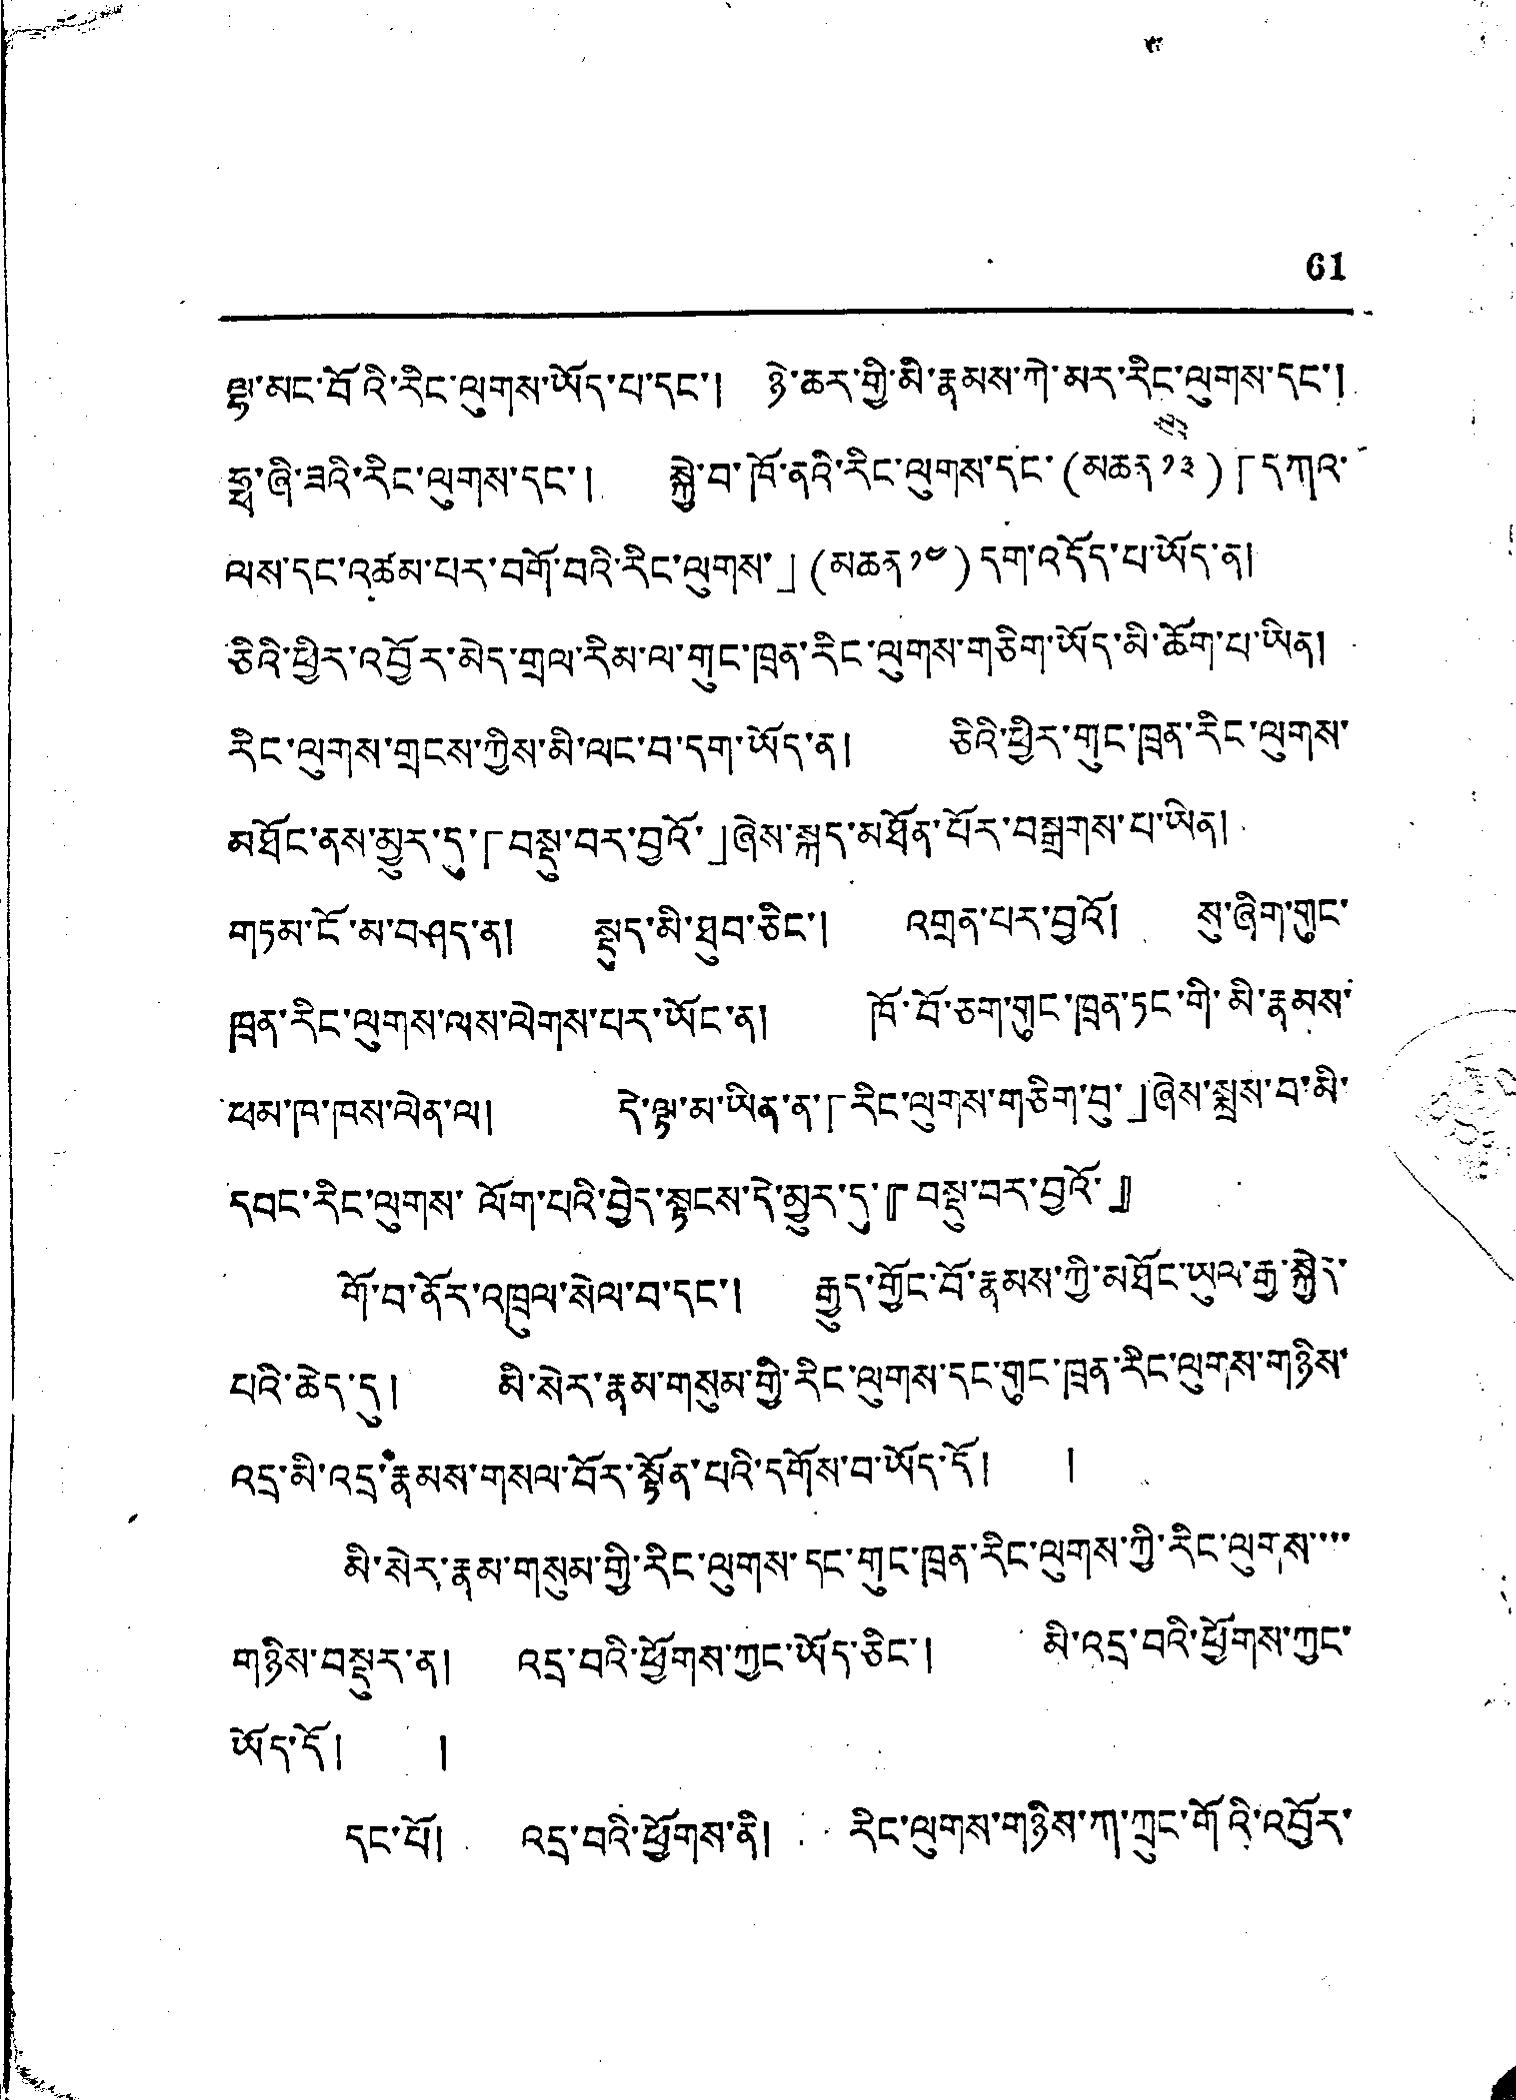61
ལྷ་མང་བོའི་རིང་ལུགས་ཡོད་པ་དང་། ཉེ་ཆར་གྱི་མི་རྣམས་ཀེ་མར་རིང་ལུགས་དང་།
ཧྥ་ཞི་ཟའི་རིང་ལུགས་དང་། སྐྱེ་བ་ཁོ་ནའི་རིང་ལུགས་དང་(མཆར ༡༣)「དཀའ་
ལས་དང་འཚམ་པར་བགོ་བའི་རིང་ལུགས་」(མཆན ༡༤) དག་འདོད་པ་ཡོད་ན།
ཅིའི་ཕྱིར་འབྱོར་མེད་གྲལ་རིམ་ལ་གུང་ཁྲན་རིང་ལུགས་གཅིག་ཡོད་མི་ཆོག་པ་ཡིན།
རིང་ལུགས་གྲངས་ཀྱིས་མི་ལང་བ་དག་ཡོད་ན། ཅིའི་ཕྱིར་གུང་ཁྲན་རིང་ལུགས་
མཐོང་ནས་མྱུར་དུ་「བསྡུ་བར་བྱའོ་」ཞེས་སྐད་མཐོན་པོར་བསྒྲགས་པ་ཡིན།
གཏམ་ངོ་མ་བཤད་ན། སྡུད་མི་ཐུབ་ཅིང་། འགྲན་པར་བྱའོ། སུ་ཞིག་གུང་
ཁྲན་རིང་ལུགས་ལས་ལེགས་པར་ཡོང་ན། ཁོ་བོ་ཅག་གུང་ཁྲན་ཏང་གི་མི་རྣམས་
ཕམ་ཁ་ཁས་ལེན་ལ། དེ་ལྟ་མ་ཡིན་ན་「རིང་ལུགས་གཅིག་བུ་」ཞེས་སྨྲས་བ་མི་
དབང་རིང་ལུགས་ལོག་པའི་བྱེད་སྟངས་དེ་མྱུར་དུ་『བསྡུ་བར་བྱའོ་』
གོ་བ་ནོར་འཁྲུལ་སེལ་བ་དང་། རྒྱུད་གྱོང་བོ་རྣམས་ཀྱི་མཐོང་ཡུལ་རྒྱུ་སྐྱེད་
པའི་ཆེད་དུ། མི་སེར་རྣམ་གསུམ་གྱི་རིང་ལུགས་དང་གུང་ཁྲན་རིང་ལུགས་གཉིས་
འདྲ་མི་འདྲ་རྣམས་གསལ་བོར་སྟོན་པའི་དགོས་བ་ཡོད་དོ། །
མི་སེར་རྣམ་གསུམ་གྱི་རིང་ལུགས་དང་གུང་ཁྲན་རིང་ལུགས་ཀྱི་རིང་ལུགས་་་་
གཉིས་བསྡུར་ན། འདྲ་བའི་ཕྱོགས་ཀྱང་ཡོད་ཅིང་། མི་འདྲ་བའི་ཕྱོགས་ཀྱང་
ཡོད་དོ། །
དང་པོ། འདྲ་བའི་ཕྱོགས་ནི། རིང་ལུགས་གཉིས་ཀ་ཀྲུང་གོའི་འབྱོར་
